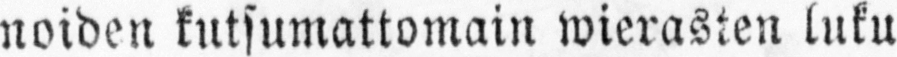noiden kutsumattomain wierasten luku
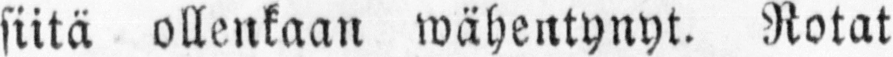siitä ollenkaan wähentynyt. Rotat
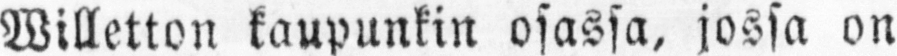Willetton kaupunkin osassa, jossa on
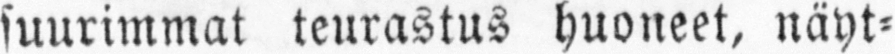suurimmat teurastus huoneet, näyt-
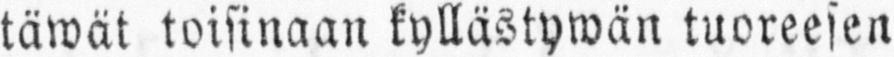täwät toisinaan kyllästywän tuoreesen
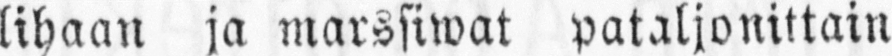lihaan ja marssiwat pataljonittain
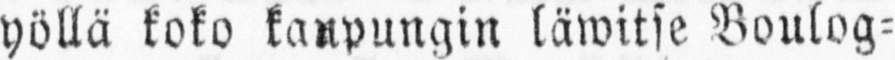yöllä koko kaupungin läwitse Boulog-
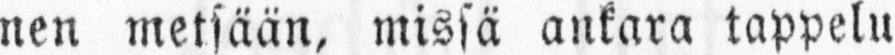nen metsään, missä ankara tappelu
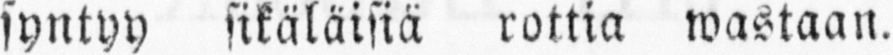syntyy sikäläisiä rottia wastaan.
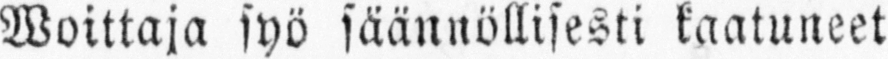Woittaja syö säännöllisesti kaatuneet
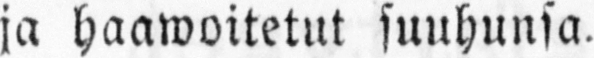ja haawoitetut suuhunsa.
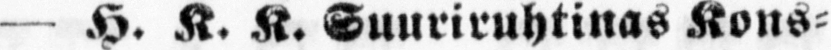— H. K. K. Suuriruhtinas Kons-
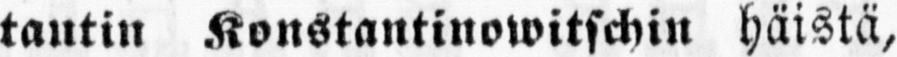tantin Konstantinowitschin häistä,
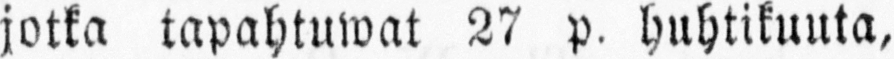jotka tapahtuwat 27 p. huhtikuuta,
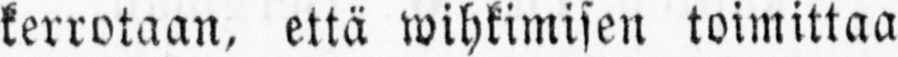kerrotaan, että wihkimisen toimittaa
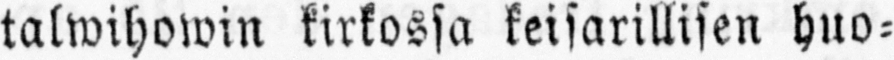talwihowin kirkossa keisarillisen huo-
